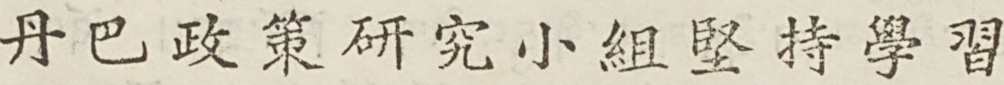丹巴政策研究小組堅持學習
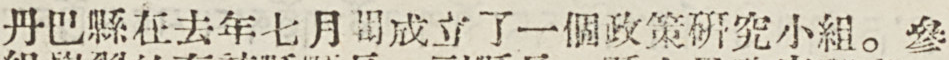丹巴縣在去年七月成立了一個政策研究小組。參
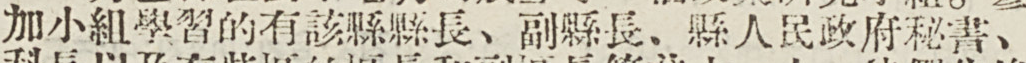加小組學習的有該縣縣長、副縣長、縣人民政府秘書、
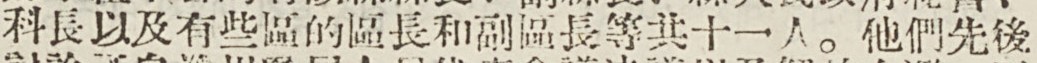科長以及有些區的區長和副區長等共十一人。他們先後
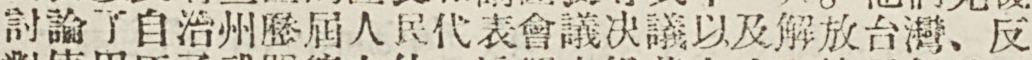討論了自治州歷屆人民代表會議決議以及解放台灣，反
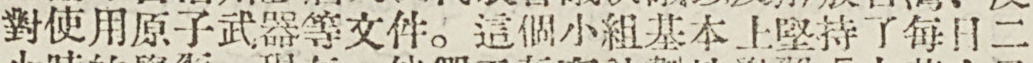對使用原子武器等文件。這個小組基本上堅持了每日二
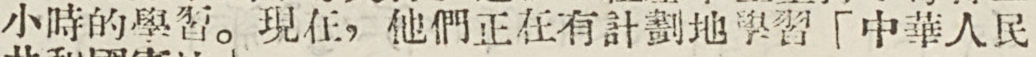小時的學習。現在，他們正在有計劃地學習「中華人民
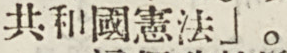共和國憲法」。
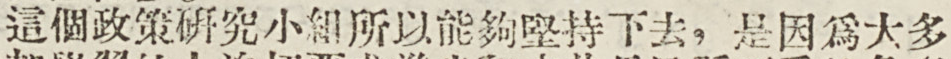這個政策研究小組所以能夠堅持下去，是因爲大多
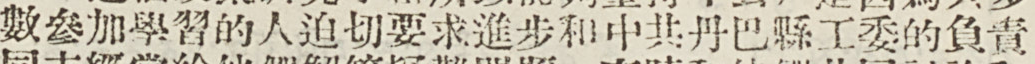數參加學習的人迫切要求進步和中共丹巴縣工委的負責
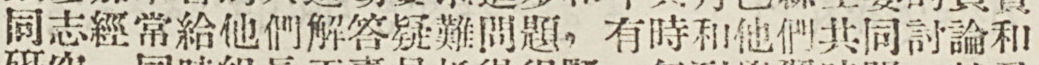同志經常給他們解答疑難問題，有時和他們共同討論和
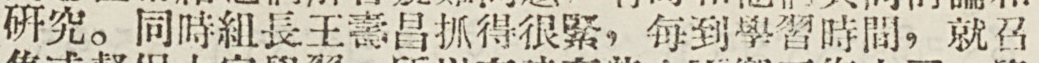研究。同時組張王壽昌抓得很緊，每到學習時間，就召
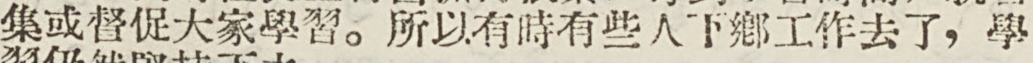集或督促大家學習。所以有時有些人下鄉工作去了，學
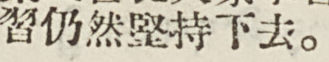習仍然堅持下去。
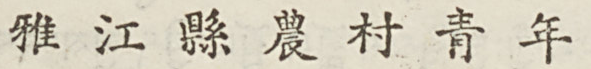雅 江 縣 農 村 青 年
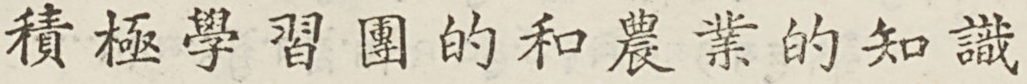積極學習團的和農業的知識
